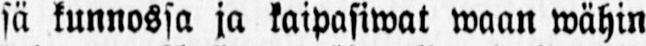sä kunnossa ja kaipasiwat waan wähin
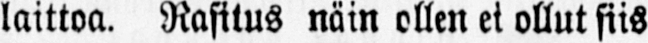laittoa. Rasitus näin ollen ei ollut siis
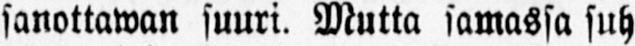sanottawan suuri. Mutta samassa suh
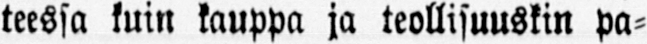teessa kuin kauppa ja teollisuuskin pa-
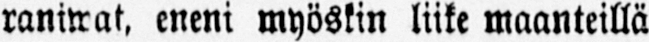raniwat, eneni myöskin liike maanteillä
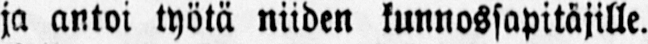ja antoi työtä niiden kunnossapitäjille.
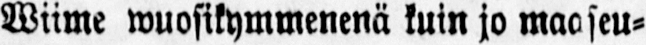Wiime wuosikymmenenä kuin jo maaseu-
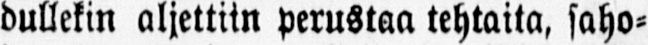dullekin aljettiin perustaa tehtaita, saho-
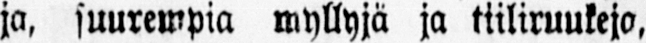ja, suurempia myllyjä ja tiiliruukeja,
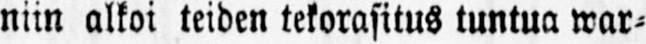niin alkoi teiden tekorasitus tuntua war-
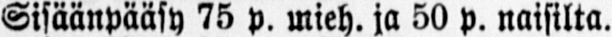Sisäänpääsy 75 p. mieh. ja 50 p. naisilta.
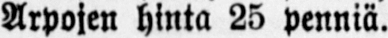Arpojen hinta 25 penniä.
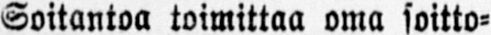Soitantoa toimittaa oma soitto-
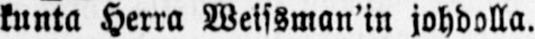kunta Herra Weissman'in johdolla.
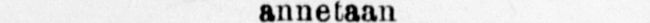annetaan
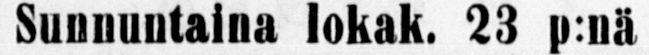Sunnuntaina lokak. 23 p:nä
